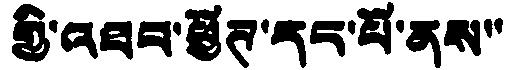གྱི་འཐབ་ཕྱོཊ་དང་པོ་ནས་་
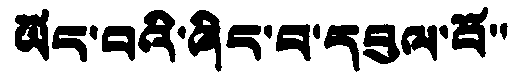ཡོང་བའི་ཞིང་བ་དབུལ་བོ་་
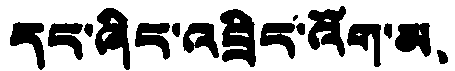དང་ཞིང་འབྲིད་འོག་མ、
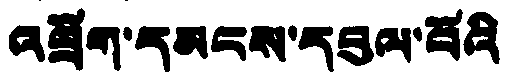འཕྲོག་དམངས་དབུལ་བོའི
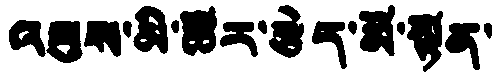འཁུས་མི་ཚོར་རྩེད་མོ་སྟོན་
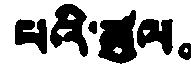པའི་ཚུལ。
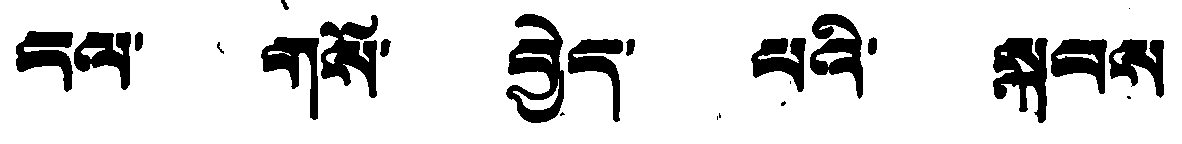ངལ་ གསོ་ བྱེད་ པའི་ སྐབས
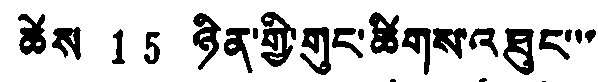ཚེས 15 ཉིན་གྱི་གུང་ཚིགས་འཐུང་་་
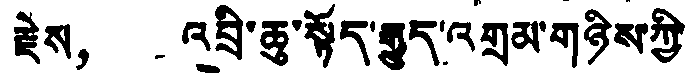རྗེས， འབྲི་ཆུ་སྟོད་རྒྱུད་འགྲམ་གཉིས་ཀྱི་
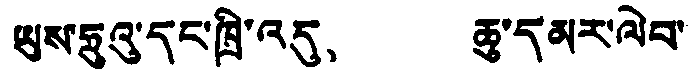ཡུས་ཧྲུའུ་དང་ཁྲི་འདུ， ཆུ་དམར་ལེབ་
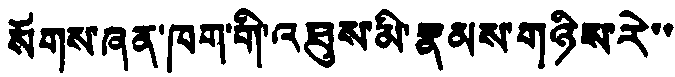སོགས་ཞན་ཁག་གི་འཐུས་མི་རྣམས་གཉིས་རེ་་
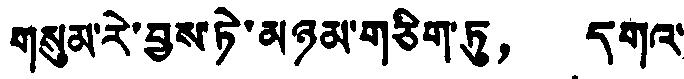གསུམ་རེ་བྱས་ཏེ་མཉམ་གཅིག་ཏུ， དགའ་
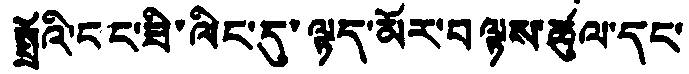སྤྲོའི་ངང་ཟི་ལིང་དུ་ལྟད་མོར་བལྟས་ཚུལ་དང་
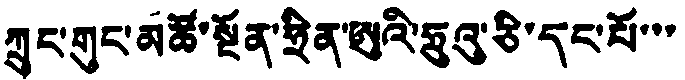ཀྲུང་གུང་མཚོ་སྔོན་ཧྲིན་ཨུའི་ཧྲུའུ་ཅི་དང་པོ་་་
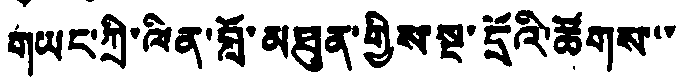གཡང་ཀྲི་ལིན་བློ་མཐུན་གྱིས་སྔ་དྲོའི་ཚོགས་་་
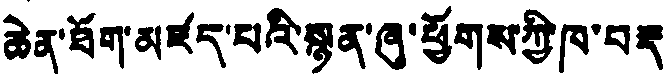ཆེན་ཐོག་མཛད་པའི་སྙན་ཞུ་ཕྱོགས་ཀྱི་ཁ་བརྡ་
